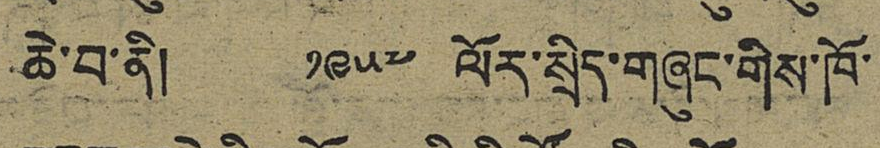ཆེ་བ་ནི། ༡༩༥༧ ལོར་སྲིད་གཞུང་གིས་ཁོ་
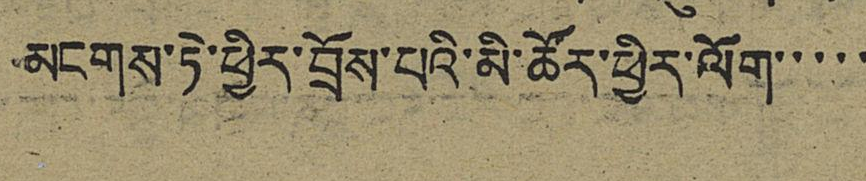མངགས་ཏེ་ཕྱིར་བྲོས་པའི་མི་ཚོར་ཕྱིར་ལོག་་་་་
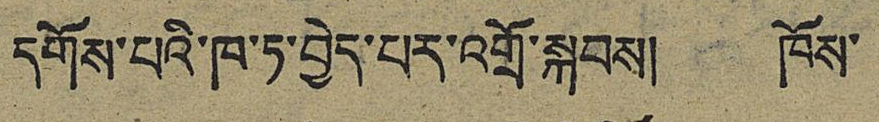དགོས་པའི་ཁ་ཏ་བྱེད་པར་འགྲོ་སྐབས། ཁོས་
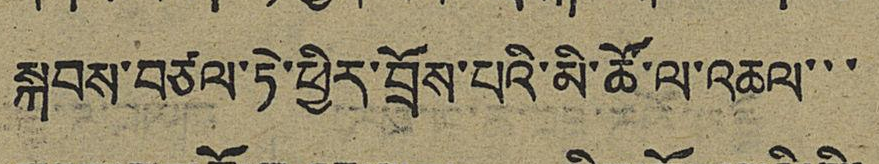སྐབས་བཙལ་ཏེ་ཕྱིར་བྲོས་པའི་མི་ཚོ་ལ་འཆལ་་་
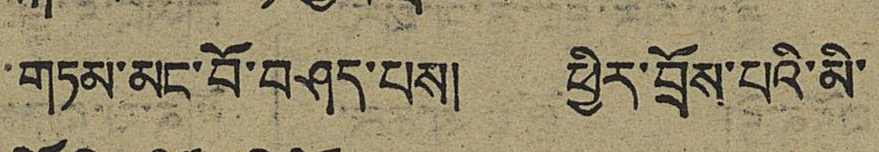གཏམ་མང་བོ་བཤད་པས། ཕྱིར་བྲོས་པའི་མི་
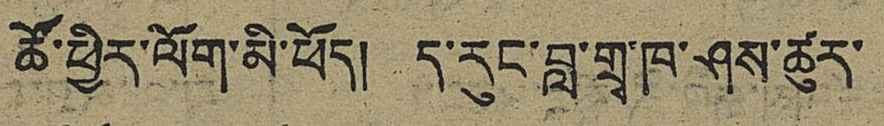ཚོ་ཕྱིར་ལོག་མི་ཕོད། ད་རུང་བླ་གྲྭ་ཁ་ཤས་ཚུར་
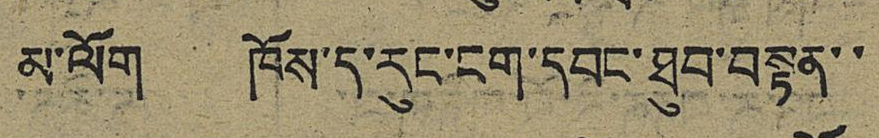མ་ལོག ཁོས་ད་རུང་ངག་དབང་ཐུབ་བསྟན་་
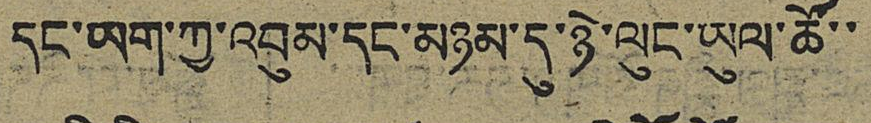དང་ཡག་ཀྱ་འབུམ་དང་མཉམ་དུ་ཉེ་ལུང་ཡུལ་ཚོ་་
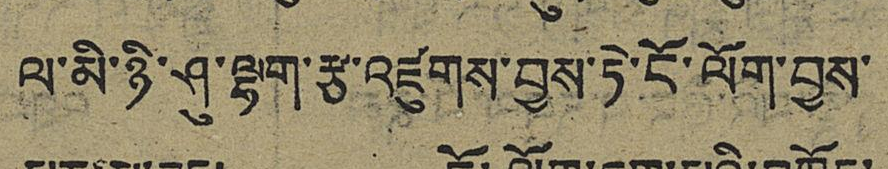ལ་མི་ཉི་ཤུ་ལྷག་རྩ་འཛུགས་བྱས་ཏེ་ངོ་ལོག་བྱས་
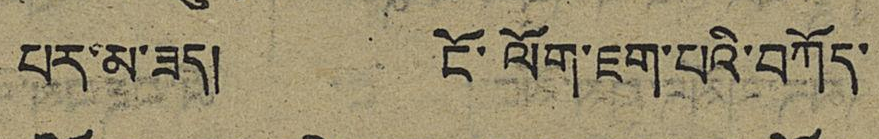པར་མ་ཟད། ངོ་ལོག་ཇག་པའི་བཀོད་
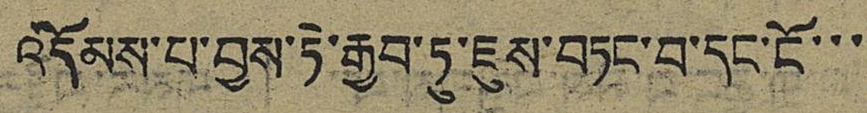འདོམས་པ་བྱས་ཏེ་རྒྱབ་ཏུ་ཇུས་བཏང་བ་དང་ངོ་་་
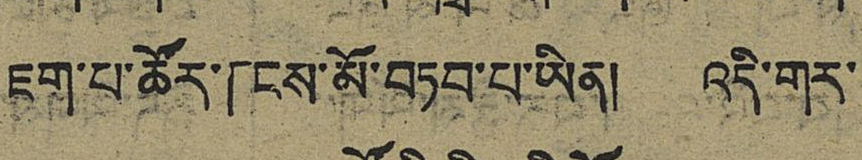ཇག་པ་ཚོར་「ངས་མོ་བཏབ་པ་ཡིན། འདི་གར་
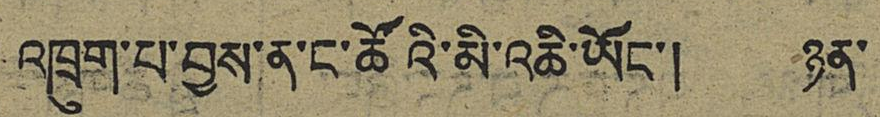འཁྲུག་པ་བྱས་ན་ང་ཚོའི་མི་འཆི་ཡོང་། ཉན་
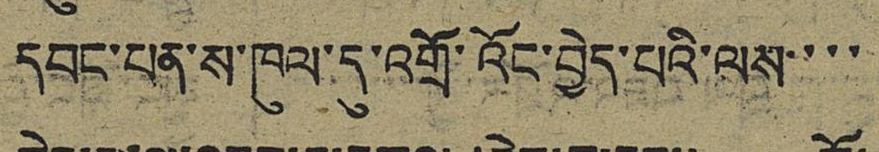དབང་པན་ས་ཁུལ་དུ་འགྲོ་འོང་བྱེད་པའི་ལས་་་་
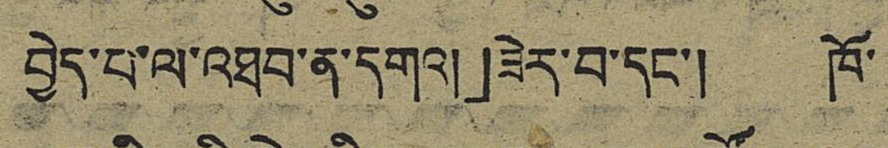བྱེད་པ་ལ་འཐབ་ན་དགའ།」ཟེར་བ་དང་། ཁོ་
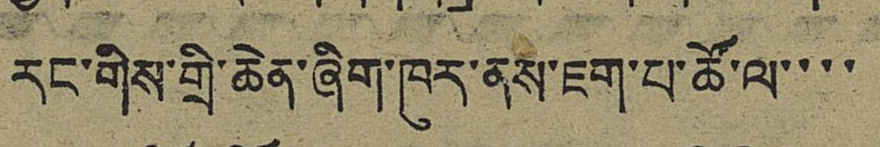རང་གིས་གྲི་ཆེན་ཞིག་ཁུར་ནས་ཇག་པ་ཚོ་ལ་་་་
